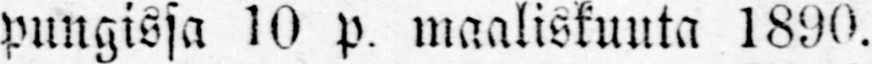pungissa 10 p. maaliskuuta 1890.
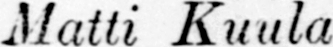Matti Kuula.
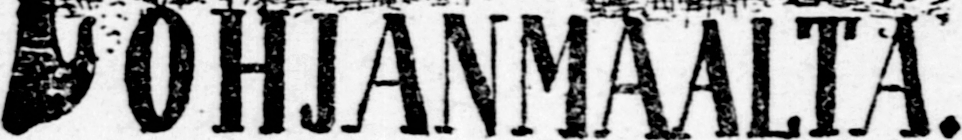Pohjanmaalta.
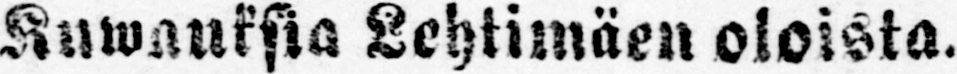Kuwauksia Lehtimäen oloista.
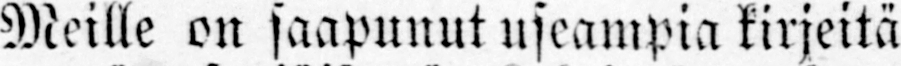Meille on saapunut useampia kirjeitä
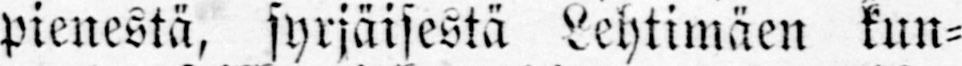pienestä, syrjäisestä Lehtimäen kun-
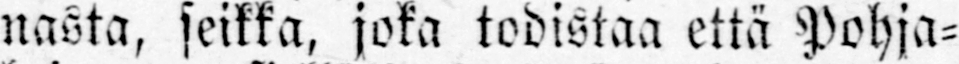nasta, seikka, joka todistaa että Pohja-
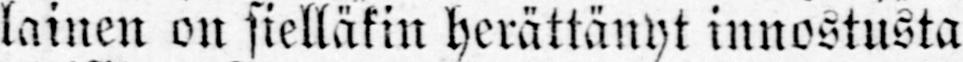lainen on sielläkin herättänyt innostusta
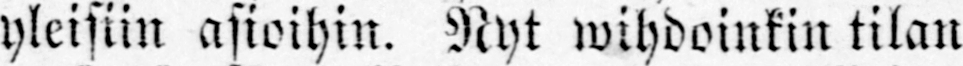yleisiin asioihin. Nyt wihdoinkin tilan
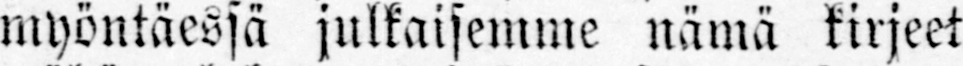myöntäessä julkaisemme nämä kirjeet
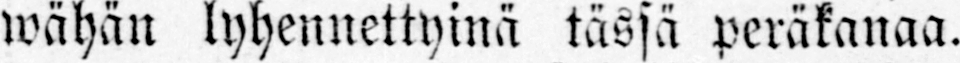wähän lyhennettyinä tässä peräkanaa.
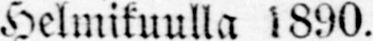Helmikuulla 1890.
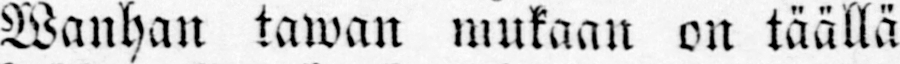Wanhan tawan mukaan on täällä
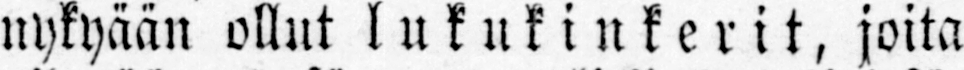nykyään ollut lukukinkerit, joita
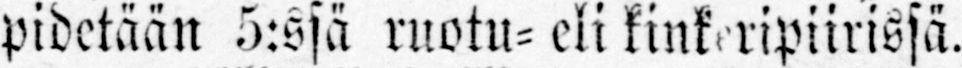pidetään 5:ssä ruotu- eli kinkeripiirissä.
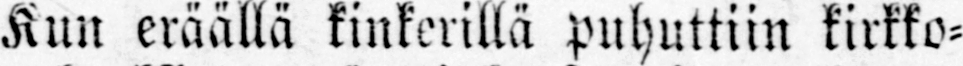Kun eräällä kinkerillä puhuttiin kirkko-
